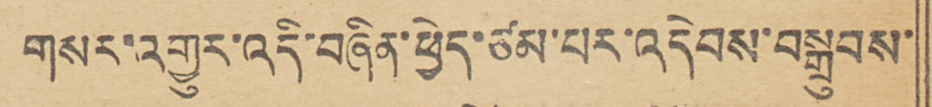གསར་འགྱུར་འདི་བཞིན་ཕྱེད་ཙམ་པར་འདེབས་བསྒྲུབས་
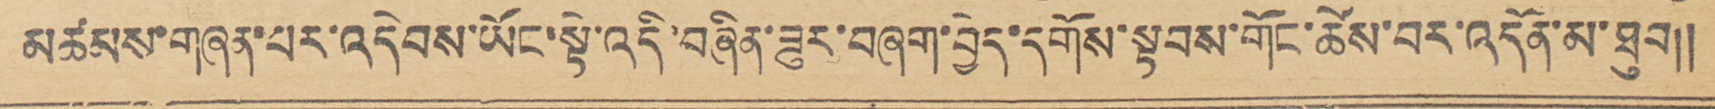མཚམས་གཞན་པར་འདེབས་ཡོང་སྟེ་འདི་བཞིན་ཟུར་བཞག་བྱེད་དགོས་སྟབས་གོང་ཚེས་བར་འདོན་མ་ཐུབ།།
